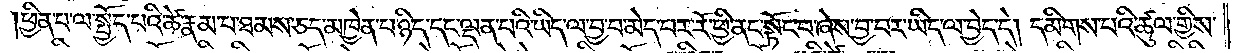ཕྱིན་པ་ལ་སྤྱོད་པའི་ཚེ་རྣམ་པ་ཐམས་ཅད་མཁྱེན་པ་ཉིད་དང་ལྡན་པའི་ཡིད་ལ་བྱ་བ་མེད་པར་རོ་ཕྱི་ནང་སྟོང་པ་ཞེས་བྱ་བར་ཡིད་ལ་བྱེད་དེ། དམིགས་པའི་ཚུལ་གྱིས་
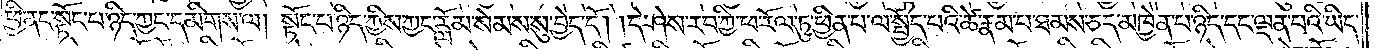ཕྱི་ནང་སྟོང་པ་ཉིད་ཀྱང་དམིགས་ལ། སྟོང་པ་ཉིད་ཀྱིས་ཀྱང་རློམ་སེམས་སུ་བྱེད་དོ། །དེ་ཤེས་རབ་ཀྱི་ཕ་རོལ་ཏུ་ཕྱིན་པ་ལ་སྤྱོད་པའི་ཚེ་རྣམ་པ་ཐམས་ཅད་མཁྱེན་པ་ཉིད་དང་ལྡན་པའི་ཡིད་
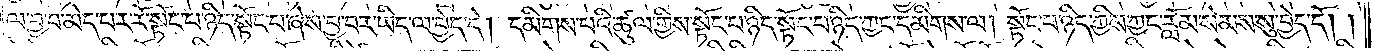ལ་བྱ་བ་མེད་པར་རོ་སྟོང་པ་ཉིད་སྟོང་པ་ཞེས་བྱ་བར་ཡིད་ལ་བྱེད་དེ། དམིགས་པའི་ཚུལ་གྱིས་སྟོང་པ་ཉིད་སྟོང་པ་ཉིད་ཀྱང་དམིགས་ལ། སྟོང་པ་ཉིད་ཀྱིས་ཀྱང་རློམ་སེམས་སུ་བྱེད་དོ། །
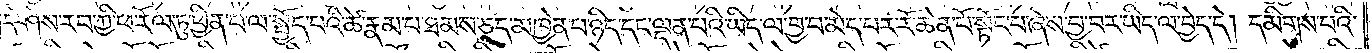དེ་ཤེས་རབ་ཀྱི་ཕ་རོལ་ཏུ་ཕྱིན་པ་ལ་སྤྱོད་པའི་ཚེ་རྣམ་པ་ཐམས་ཅད་མཁྱེན་པ་ཉིད་དང་ལྡན་པའི་ཡིད་ལ་བྱ་བ་མེད་པར་རོ་ཆེན་པོ་སྟོང་པ་ཞེས་བྱ་བར་ཡིད་ལ་བྱེད་དེ། དམིགས་པའི་
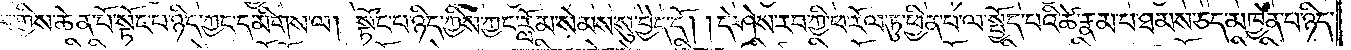ཚུལ་གྱིས་ཆེན་པོ་སྟོང་པ་ཉིད་ཀྱང་དམིགས་ལ། སྟོང་པ་ཉིད་ཀྱིས་ཀྱང་རློམ་སེམས་སུ་བྱེད་དོ། །དེ་ཤེས་རབ་ཀྱི་ཕ་རོལ་ཏུ་ཕྱིན་པ་ལ་སྤྱོད་པའི་ཚེ་རྣམ་པ་ཐམས་ཅད་མཁྱེན་པ་ཉིད་
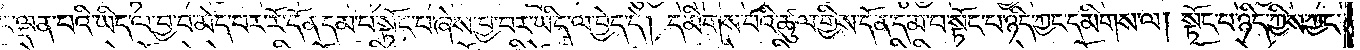དང་ལྡན་པའི་ཡིད་ལ་བྱ་བ་མེད་པར་རོ་དོན་དམ་པ་སྟོང་པ་ཞེས་བྱ་བར་ཡིད་ལ་བྱེད་དེ། དམིགས་པའི་ཚུལ་གྱིས་དོན་དམ་པ་སྟོང་པ་ཉིད་ཀྱང་དམིགས་ལ། སྟོང་པ་ཉིད་ཀྱིས་ཀྱང་
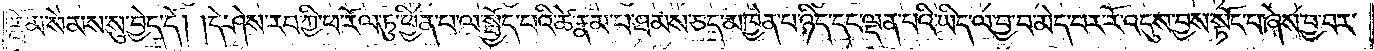རློམ་སེམས་སུ་བྱེད་དོ། །དེ་ཤེས་རབ་ཀྱི་ཕ་རོལ་ཏུ་ཕྱིན་པ་ལ་སྤྱོད་པའི་ཚེ་རྣམ་པ་ཐམས་ཅད་མཁྱེན་པ་ཉིད་དང་ལྡན་པའི་ཡིད་ལ་བྱ་བ་མེད་པར་རོ་འདུས་བྱས་སྟོང་པ་ཞེས་བྱ་བར་
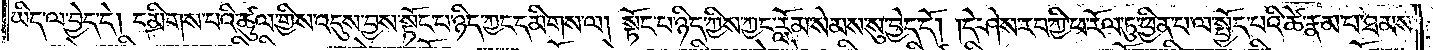ཡིད་ལ་བྱེད་དེ། དམིགས་པའི་ཚུལ་གྱིས་འདུས་བྱས་སྟོང་པ་ཉིད་ཀྱང་དམིགས་ལ། སྟོང་པ་ཉིད་ཀྱིས་ཀྱང་རློམ་སེམས་སུ་བྱེད་དོ། །དེ་ཤེས་རབ་ཀྱི་ཕ་རོལ་ཏུ་ཕྱིན་པ་ལ་སྤྱོད་པའི་ཚེ་རྣམ་པ་ཐམས་
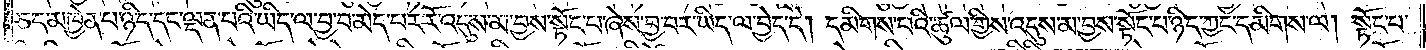ཅད་མཁྱེན་པ་ཉིད་དང་ལྡན་པའི་ཡིད་ལ་བྱ་བ་མེད་པར་རོ་འདུས་མ་བྱས་སྟོང་པ་ཞེས་བྱ་བར་ཡིད་ལ་བྱེད་དེ། དམིགས་པའི་ཚུལ་གྱིས་འདུས་མ་བྱས་སྟོང་པ་ཉིད་ཀྱང་དམིགས་ལ། སྟོང་པ་
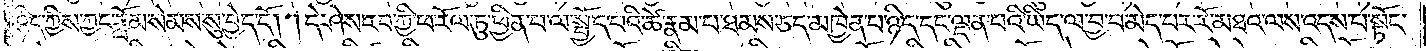ཉིད་ཀྱིས་ཀྱང་རློམ་སེམས་སུ་བྱེད་དོ། །དེ་ཤེས་རབ་ཀྱི་ཕ་རོལ་ཏུ་ཕྱིན་པ་ལ་སྤྱོད་པའི་ཚེ་རྣམ་པ་ཐམས་ཅད་མཁྱེན་པ་ཉིད་དང་ལྡན་པའི་ཡིད་ལ་བྱ་བ་མེད་པར་རོ་མཐའ་ལས་འདས་པ་སྟོང་
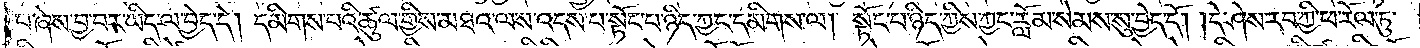པ་ཞེས་བྱ་བར་ཡིད་ལ་བྱེད་དེ། དམིགས་པའི་ཚུལ་གྱིས་མཐའ་ལས་འདས་པ་སྟོང་པ་ཉིད་ཀྱང་དམིགས་ལ། སྟོང་པ་ཉིད་ཀྱིས་ཀྱང་རློམ་སེམས་སུ་བྱེད་དོ། །དེ་ཤེས་རབ་ཀྱི་ཕ་རོལ་ཏུ་
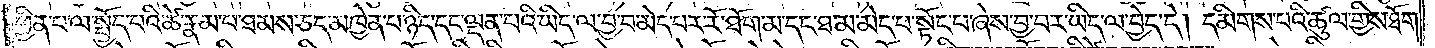ཕྱིན་པ་ལ་སྤྱོད་པའི་ཚེ་རྣམ་པ་ཐམས་ཅད་མཁྱེན་པ་ཉིད་དང་ལྡན་པའི་ཡིད་ལ་བྱ་བ་མེད་པར་རོ་ཐོག་མ་དང་ཐ་མ་མེད་པ་སྟོང་པ་ཞེས་བྱ་བར་ཡིད་ལ་བྱེད་དེ། དམིགས་པའི་ཚུལ་གྱིས་ཐོག་
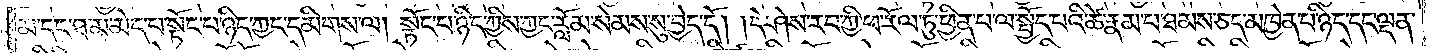མ་དང་ཐ་མ་མེད་པ་སྟོང་པ་ཉིད་ཀྱང་དམིགས་ལ། སྟོང་པ་ཉིད་ཀྱིས་ཀྱང་རློམ་སེམས་སུ་བྱེད་དོ། །དེ་ཤེས་རབ་ཀྱི་ཕ་རོལ་ཏུ་ཕྱིན་པ་ལ་སྤྱོད་པའི་ཚེ་རྣམ་པ་ཐམས་ཅད་མཁྱེན་པ་ཉིད་དང་ལྡན་
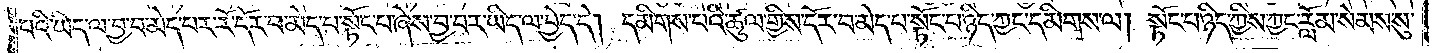པའི་ཡིད་ལ་བྱ་བ་མེད་པར་རོ་དོར་བ་མེད་པ་སྟོང་པ་ཞེས་བྱ་བར་ཡིད་ལ་བྱེད་དེ། དམིགས་པའི་ཚུལ་གྱིས་དོར་བ་མེད་པ་སྟོང་པ་ཉིད་ཀྱང་དམིགས་ལ། སྟོང་པ་ཉིད་ཀྱིས་ཀྱང་རློམ་སེམས་སུ་
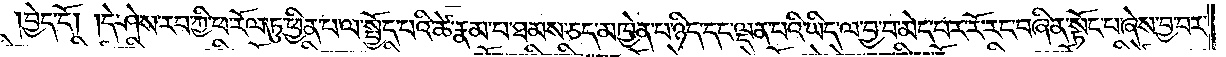བྱེད་དོ། །དེ་ཤེས་རབ་ཀྱི་ཕ་རོལ་ཏུ་ཕྱིན་པ་ལ་སྤྱོད་པའི་ཚེ་རྣམ་པ་ཐམས་ཅད་མཁྱེན་པ་ཉིད་དང་ལྡན་པའི་ཡིད་ལ་བྱ་བ་མེད་པར་རོ་རང་བཞིན་སྟོང་པ་ཞེས་བྱ་བར་
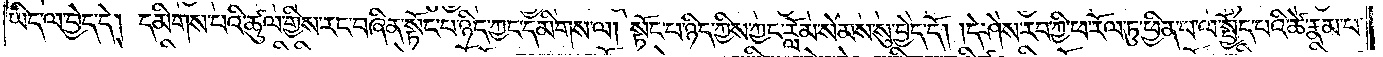ཡིད་ལ་བྱེད་དེ། དམིགས་པའི་ཚུལ་གྱིས་རང་བཞིན་སྟོང་པ་ཉིད་ཀྱང་དམིགས་ལ། སྟོང་པ་ཉིད་ཀྱིས་ཀྱང་རློམ་སེམས་སུ་བྱེད་དོ། །དེ་ཤེས་རབ་ཀྱི་ཕ་རོལ་ཏུ་ཕྱིན་པ་ལ་སྤྱོད་པའི་ཚེ་རྣམ་པ་
